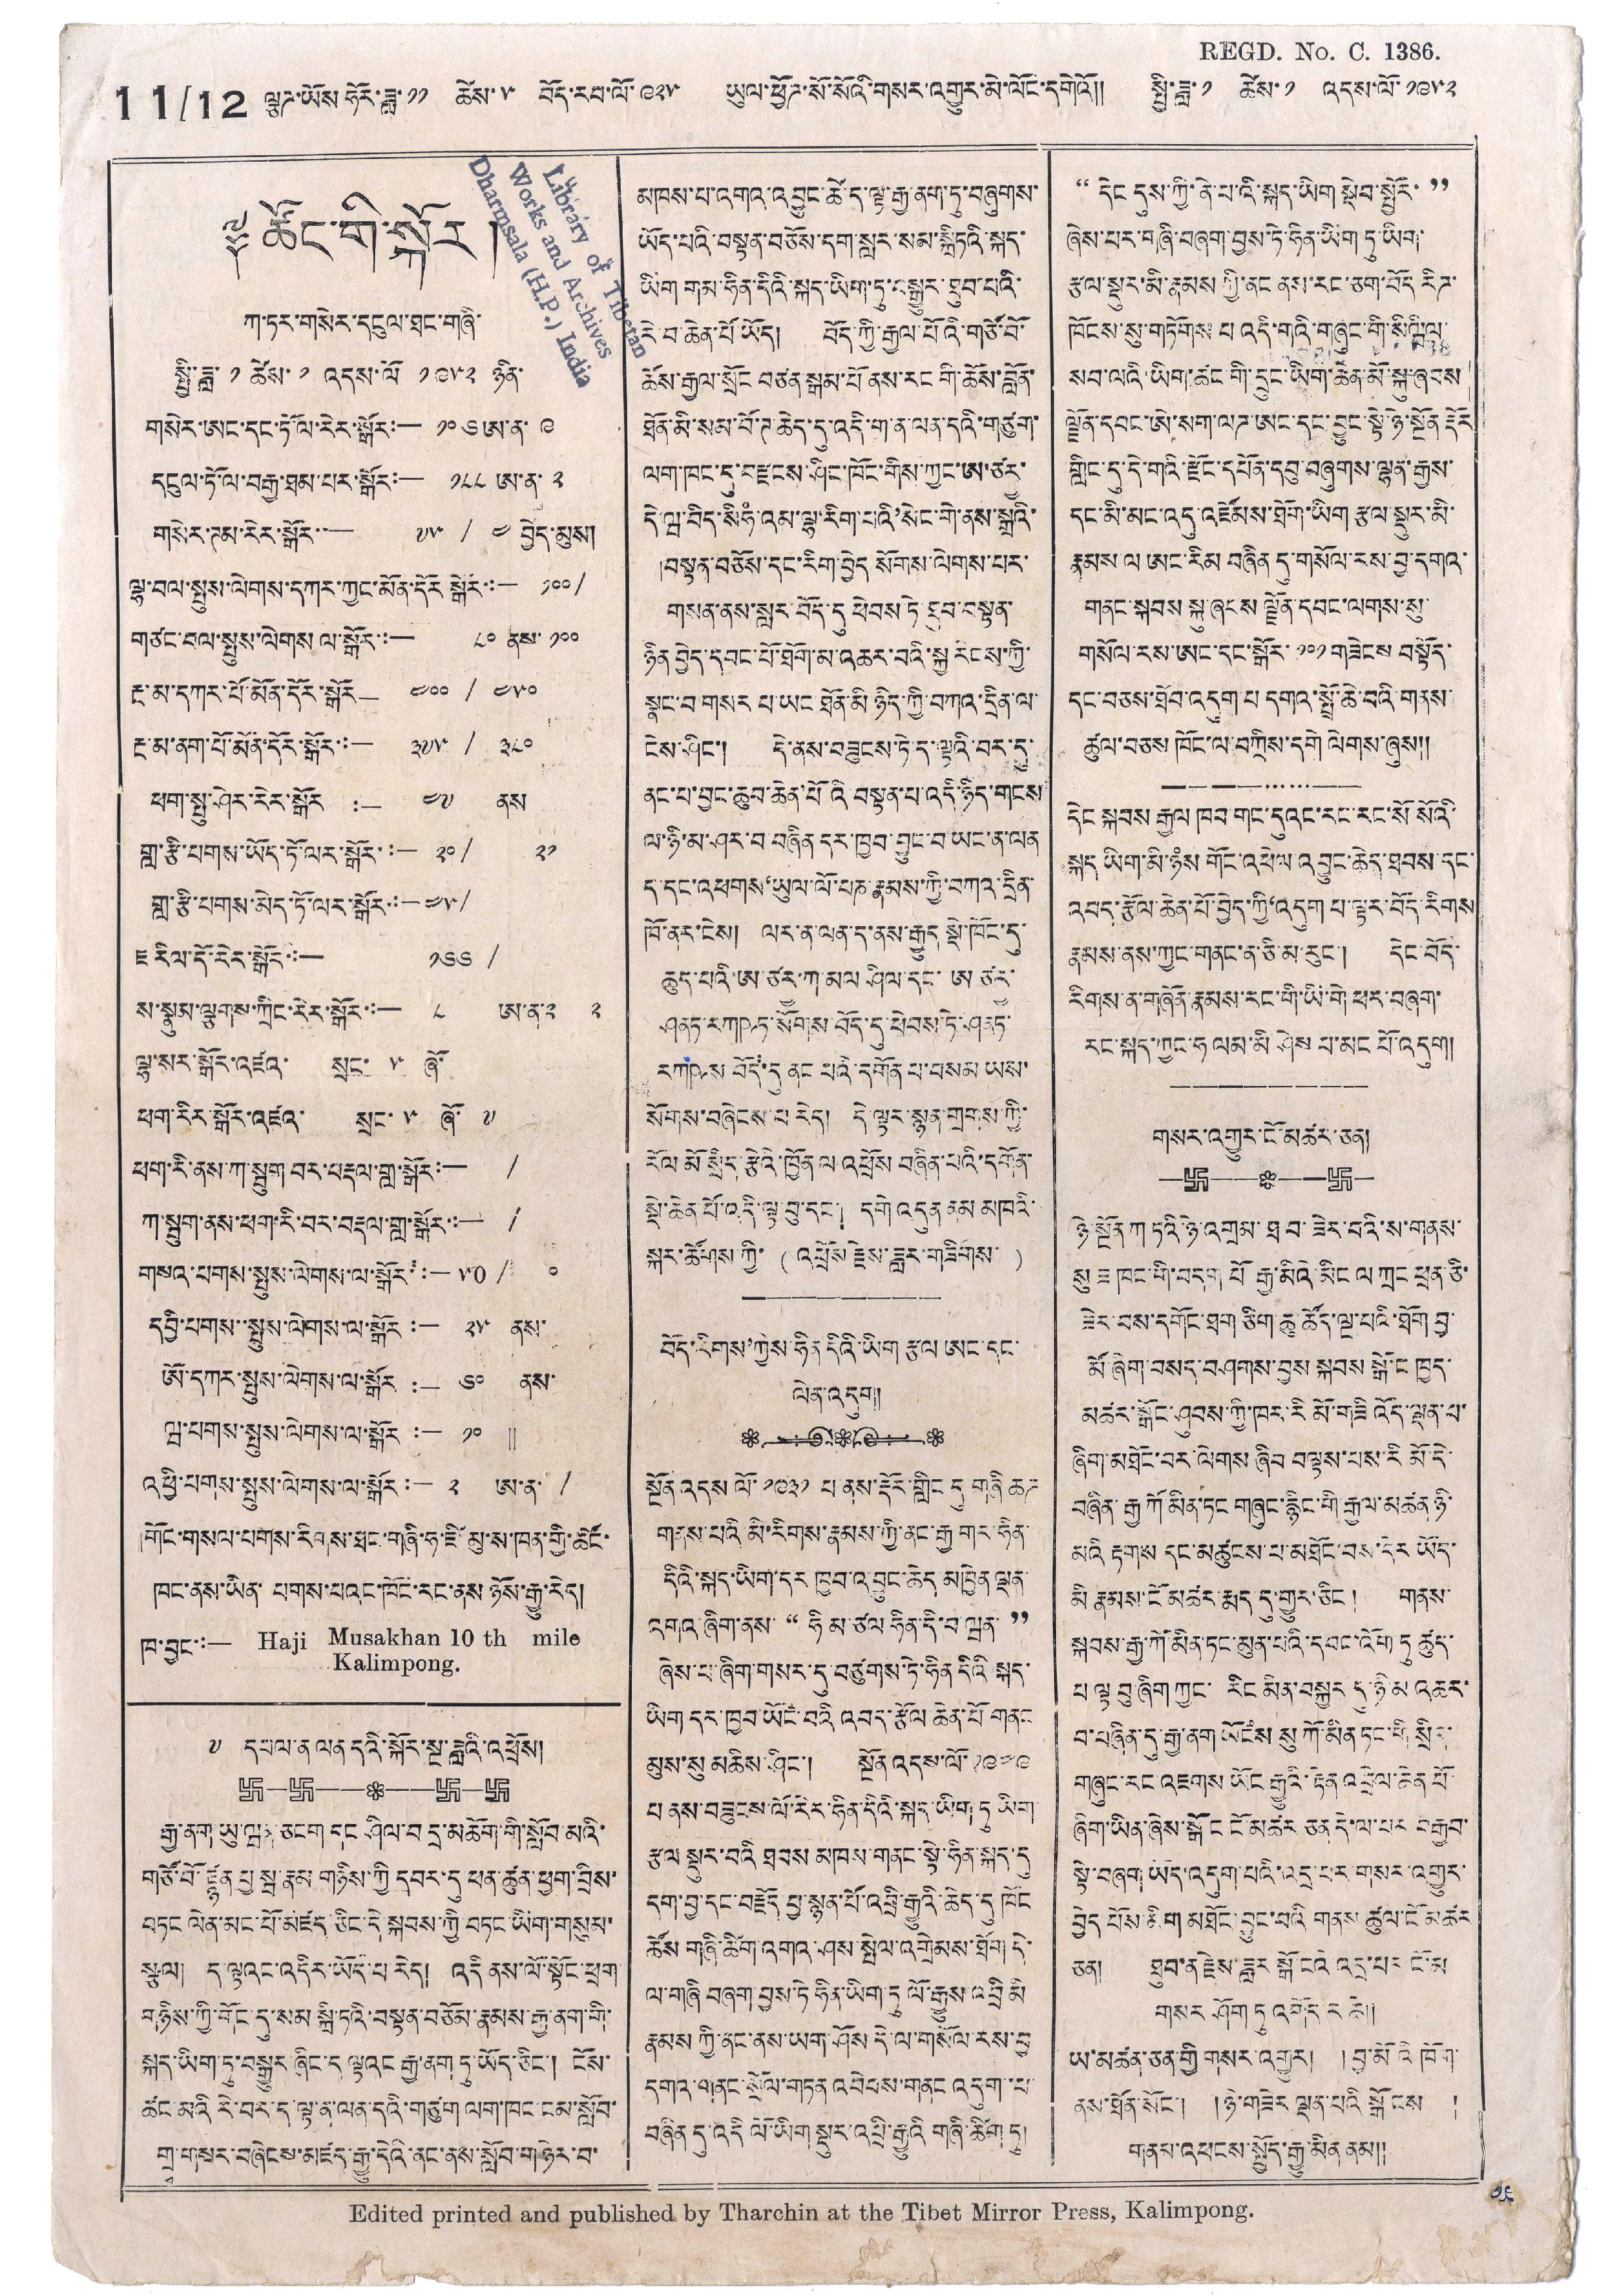REGD. No. C. 1386.
11/12 ལྕཊ་ཡོས་ཧོར་ཟླ་ ༡༡ ཚེས་ ༥ བོད་རབ་ལོ་ ༩༢༥ ཡུལ་ཕྱོཊ་སོ་སོའི་གསར་འགྱུར་མེ་ལོང་དགེའོ།། སྤྱི་ཟླ་ ༡ ཚེས་ ༡ འདས་ལོ་ ༡༩༥༢
༈ ཚོང་གི་སྐོར།
ཀ་ཏར་གསེར་དངུལ་ཐང་གཞི་
སྤྱི་ཟླ་ ༡ ཚེས་ ༡ འདས་ལོ་ ༡༩༥༢ ཉིན་
གསེར་ཨང་དང་ཏོ་ལ་རེར་སྒོར:— ༡༠༦ ཨ་ན་ ༩
དངུལ་ཏོ་ལ་བརྒྱ་ཐམ་པར་སྒོར་:— ༡༨༨ ཨ་ན་ ༢
གསེར་ཊམ་རེར་སྒོར་:— ༧༥ / ༤ བྱེད་མུས།
ལྷ་བལ་སྤུས་ལེགས་དཀར་ཀྱང་མོན་དོར་སྒེར་:— ༡༠༠/
གཙང་བལ་སྤུས་ལེགས་ལ་སྒོར:— ༨༠ ནས་ ༡༠༠
རྔ་མ་དཀར་པོ་མོན་དོར་སྒོར་— ༤༠༠ / ༤༥༠
རྔ་མ་་ནག་པོ་མོན་དོར་སྒོར་:— ༣༧༥ / ༣༨༠
ཕག་སྤུ་ཤེར་རེར་སྒོར་:— ༤༧  ནས
གླ་རྩི་པགས་ཡོད་ཏོ་ལར་སྒོར་:— ༢༠ / ༢༡
གླ་རྩི་པགས་མེད་ཏོ་ལར་སྒོར་:— ༤༥/
ཇ་རིལ་དོ་རེར་སྒོང་:— ༡༦༦ /
ས་སྣུམ་ལྕགས་ཀྲིང་རེར་སྒོར་:— ༨ ཨ་ན་ ༢ ༢
ལྷ་སར་སྒོར་འཛའ་ སྲང་ ༥ ཞོ་
ཕག་རིར་སྒོར་འཛའ་ སྲང་ ༥ ཞོ་ ༧
ཕག་རི་ནས་ཀ་སྤུག་བར་བརྡལ་གླ་སྒོར་:— /
ཀ་སྦུག་ནས་ཕག་རི་བར་བརྡར་གླ་སྒོར་:— /
གསའ་པགས་སྤུས་ལེགས་ལ་སྒོར་  ༥༠ / ༠
དབྱི་པགས་་སྤུས་ལེགས་ལ་སྒོར་:— ༢༥ ནས་
ཨོ་དཀར་སྤུས་ལེགས་ལ་སྒོར་:— ༦༠ ནས་
ཝ་པགས་སྤུས་ལེགས་ལ་སྒོར་:— ༡༠ ||
འཕྱི་པགས་སྤུས་ལེགས་ལ་སྒོར་:— ༢ ཨ་ན་ /
།གོང་གསལ་པགས་རིགས་ཐང་གཞི་ཧ་ཇི་མུ་ས་ཁན་གྱི་ཚོང་
ཁང་ནས་ཡིན་ པགས་པའང་ཁོང་རང་ནས་ཉོས་རྒྱུ་རེད།
ཁ་བྱང་:— Haji Musakhan 10th mile
Kalimpong.
༸ དཔལ་ན་ལན་དའི་སྐོར་སྔ་ཟླའི་འཕྲོས།
རྒྱ་ནག ཡུ་ཝན་ཅངག དང ཤིལ་བ་དྲ་མཆོག་གི་སློབ་མའི་
གཙོ་བོ་ཛྙན པྱ སྦ་རྣམ་གཉིས་ཀྱི་དབར་དུ ཕན་ཚུན་ཕྱག་བྲིས་
བཏང་ལེན་མང་པོ་མཛད་ཅིང་དེ་སྐབས་ཀྱི་བཏང་ཡིག་གསུམ་
སྩལ། ད་ལྟའང་འདིར་ཡོད་པ་རེད། འདི་ནས་ལོ་སྟོང་ཕྲག་
གཉིས་ཀྱི་གོང་དུ་སམ་སྐྲི་ཏའི་བསྟན་བཅོས་རྣམས་རྒྱ་ནག་གི་
སྐད་ཡིག་ཏུ་བསྒྱུར་ཞིང་ད་ལྟའང་རྒྱ་ནག་ཏུ་ཡོད་ཅིང་། ངོས་
ཚང་མའི་རེ་བར་ད་ལྟ་ན་ལན་དའི་གཙུག་ལག་ཁང་ངམ་སློབ་
གྲྭ་གསར་བཞེངས་མཛད་རྒྱུ་དེའི་ནང་ནས་སློབ་གཉེར་བ་
མཁས་པ་འགའ་འབྱུང་ཚེ་ད་ལྟ་རྒྱ་ནག་ཏུ་བཞུགས་
ཡོད་པའི་བསྟན་བཅོས་དག་སླར་སམ་སྐྲིཏའི་སྐད་
ཡིག གམ་ཧིན་དིའི་སྐད་ཡིག་ཏུ་བསྒྱུར་ཐུབ་པའི་
རེ་བ་ཆེན་པོ་ཡོད། བོད་ཀྱི་རྒྱལ་པོའི་གཙོ་བོ་
ཆོས་རྒྱལ་སྲོང བཙན་སྒམ་པོ་ནས་རང་གི་ཆོས་བློན་
ཐོན་མི་སམ་བོ་ཊ་ཆེད་དུ་འདི་ག་ན་ལན་དའི་གཙུག་
ལག་ཁང་དུ་བརྫངས་ཤིང་ཁོང་གིས་ཀྱང་ཨ་ཙརྱ་
དེ་ཝ་བིད་སིཧཾཾ་འམ་ལྷ་རིག་པའི'སེང་གེ་ནས་སྒྲའི་
།བསྟན་བཅོས་དང་རིག་བྱེད སོགས་ལེགས་པར་
གསན་ནས་སླར་བོད་དུ་ཕེབས ཏེ་ཐུབ་བསྟན་
ཉིན་བྱེད་དབང་པོ་ཐོག་མ་འཆར་བའི་སྐྱ རིངས་ཀྱི་
སྣང་བ་གསར་ པ་ཡང ཐོན་མི ཉིད་ཀྱི་བཀའ་དྲིན་ལ་
ངེས་ཤིང་། དེ་ནས་་བཟུངས་ཏེ་ད་ལྟའི་བར་དུ་
ནང་པ་བྱང་ཆུབ་ཆེན་པོའི་བསྟན་པ་འདི་ཉིད་གངས་
ལ་ཉི་མ་ཤར་བ་བཞིན་དར་ཁྱབ་བྱུང་བ་ཡང་ན་ལན་
ད་དང་འཕགས'ཡུལ་ལོ་པཎ་རྣམས་ཀྱི་བཀའ་དྲིན་
ཁོ་ནར་ངེས། ལར་ན་ལན་ད་ནས་རྒྱུད་སྡེ་ཁོང་དུ་
ཆུད་པའི་ཨ་ཙརྱ་ཀ་མལ ཤིལ་དང་ཨ ཙརྱ་
ཤནཏ་རཀཥཏ་སོགས་བོད་དུ་ཕེབས་ཏེ་ཤནཏ་
རཀཥས་བོད་དུ་ནང པའི་དགོན་པ་བསམ ཡས་
སོགས་བཞེངས་པ་རེད། དེ་ལྟར་སྙན་གྲགས་ཀྱི་
རོལ་མོ་སྲིད་རྩེའི་ཁྱོན་ལ་འཕྲོས བཞིན་པའི་དགོན་
སྡེ་ཆེན་པོ་འདི་ལྟ་བུ་དང་། དགེ་འདུན་ནམ་མཁའི་
སྐར་ཚོགས་ཀྱི་ (འཕྲོས་རྗེས་ཟླར་གཟིགས་)
བོད་རིགས'ཀྱིས་ཧིན དིའི་ཡིག རྩལ ཨང་དང་
ལེན་འདུག།
སྔོན་འདས་ལོ་ ༡༩༣༡ པ་ནས་རྡོར་གླིང དུ གཞི་ཆཊ
གནས་པའི་མི་རིགས་རྣམས་ཀྱི་ནང་རྒྱ གར་ཧིན་
དེའི་སྐད་ཡིག་དར་ཁྱབ་འབྱུང་ཆེད་མཁྱེན་ལྡན་
འགའ་ཞིག་ནས་ '' ཧི མ་ཙལ་ཧིན་དི་བ་ཝན་ ''
ཞེས་པ་ཞིག་གསར་དུ་བཙུགས་ཏེ་ཧིན་དིའི སྐད་
ཡིག་དར་ཁྱབ་ཡོང་བའི འབད་རྩོལ་ཆེན་པོ གནང་
མུས་སུ་མཆིས་ཤིང་། སྔོན་འདས་ལོ་ ༡༩༤༩
པ ནས་བཟུངས་ལོ་རེར་ཧིན་དིའི་སྐད་ཡིག ཏུ ཡིག་
རྩལ་སྡུར་བའི ཐབས མཁས་གནང་སྟེ་ཧིན་སྐད་དུ་
དག་བྱ་དང་བརྗོད་བྱ་སྙན་པོ་འབྲི་རྒྱུའི་ཆེད་དུ་ཁོང་
ཚོས་གཞི་ཚིག་འགའ་ཤས་སྤེལ་འགྲེམས་ཐོག་དེ་
ལ་གཞི བཞག་བྱས་ཏེ་ཧིན་ཡིག་ཏུ ལོ་རྒྱུས་འབྲི མི་
རྣམས ཀྱི་ནང་ནས་ཡག་ཤོས་དེ་ལ་གསོལ་རས་བྱ་
དགའ་གནང་སྲོལ་གཏན་འབེབས་གནང འདུག་པ་
བཞིན་དུ་འདི ལོ་ཡིག སྡུར་འཔྲི་རྒྱུའི གཞི་ཚིག ཏུ་
'' དེང དུས་ཀྱི་ནེ་པ་འི་སྐད་ཡིག་སྡེབ་སྦྱོར་ ''
ཞེས་པར་གཞི་བཞག་བྱས་ཏེ་ཧིན་ཡིག་ཏུ་ཡིག་
རྩལ་སྡུར་མི་རྣམས ཀྱི་ནང་ནས་རང་ཅག་བོད རིཊ
ཁོངས་སུ་གཏོགས པ འདི་གའི་གཞུང་གི་སིཝིལ་
སབ་ལའི་ཡིག་ཚང་གི་དྲུང་ཡིག་ཆེན་མོ་སྐུ་ཞབས་
ལྗོན་དབང་ཨེ་སག་ལཊ་ཨང་དང་བྱུང་སྟེ་ཉེ་སྔོན རྡོར་
གླིང་དུ་དེ་གའི་རྫོང་དཔོན་དབུ་བཞུགས་ལྷན་རྒྱས་
དང་མི་མང་འདུ་འཛོམས་ཐོག་ཡིག་རྩལ་སྡུར་མི་
རྣམས་ལ ཨང་རིམ་བཞིན དུ་གསོལ་རས་བྱ་དགའ་
གནང་སྐབས སྐུ་ཞབས་ལྗོན་དབང་ལགས་སུ་
གསོལ་རས་ཨང་དང་སྒོར་ ༡༠༡ གཟེངས བསྟོད་
དང་བཅས་ཐོབ་འདུག་པ དགའ་སྤྲོ་ཆེ་བའི་གནས་
ཚུལ་བཅས་ཁོང་ལ་བཀྲིས་དགེ་ལེགས་ཞུས།།
དེང་སྐབས རྒྱལ ཁབ་གང་དུའང་རང་རང་སོ་སོའི་
སྐད ཡིག་མི་ཉཾས་གོང་འཕེལ་འབྱུང་ཆེད་ཐབས་དང་
འབད་རྩོལ་ཆེན་པོ་བྱེད་ཀྱི'འདུག་པ་ལྟར་བོད་རིགས
རྣམས་ནས་ཀྱང་གནང་ན་ཅི་མ་རུང་། དེང་བོད་
རིགས་ན་གཞོན་རྣམས་རང་གི་ཡི་གེ་ཕར་བཞག་
རང་སྐད་ཀྱང་ཧ་ལམ་མི ཤེས་པ་མང་པོ་འདུག།
གསར་འགྱུར་ངོ་མཚར་ཅན།
ཉེ་སྔོན་ཀ ཏའི་ཉེ་འགྲམ་ཐབ་ཟེར་བའི་ས་གནས་
སུ ཟ ཁང་གི་བདག་པོ རྒྱ་མིའི་མིང་ལ་ཀྲང ཕྲན་ཅི་
ཟེར་བས་དགོང་ཐག་ཅིག་ཆུ་ཚོད་ལྔ་པའི་ཐོག་བྱ་
མོ་ཞིག་བསད་བཤགས་བྱས སྐབས་སྒོ་ང ཁྱད་
མཚར་སྒོང་ཤུབས་ཀྱི་ཁར་རི མོ་གཟི་ འོད་ལྡན་པ་
ཞིག་མཐོང་བར་ལེགས ཞིབ བལྟས་པས་རི མོ་དེ་
བཞིན་རྒྱ ཀོ་མིན་ཏང་གཞུང་རྙིང་གི་རྒྱལ་མཚན་ཉི་
མའི་རྟགས དང་མཚུངས་པ་མཐོང་བས་དེར ཡོད་
མི་རྣམས་ངོ་མཚར་རྨད་དུ་གྱུར་ཅིང ། གནས་
སྐབས་རྒྱ་ཀོ་མིན་ཏང་མུན་པའི་དབང་འོག་ཏུ་ཚུད་
པ་ལྟ་བུ་ཞིག་ཀྱང་ རིང་མིན་བསྐྱར དུ་ཉི་མ འཆར་
བ་བཞིན་དུ་རྒྱ་ནག ཡོངས་སུ་ཀོ་མིན་ཏང་གི སྲིད་
གཞུང་རང་འཇགས ཡོང རྒྱུའི་རྟེན་འབྲེལ་ཆེན་པོ་
ཞིག་ཡིན་ཞེས་སྒོ ང་ངོ་མཚར ཅན་དེ་ལ་པར བརྒྱབ་
སྟེ་བཞག ཡོད་འདུག་པའི་འདྲ་པར་གསར་འགྱུར་
བྱེད་པོས་མིག་མཐོང་བྱུང་བའི གནས ཚུལ་ངོ་མཚར་
ཅན། ཐུབ་ན་རྗེས་ཟླར སྒོ་ངའི་འདྲ་པར་ངོ་མ་
གསར་ཤོག ཏུ འགོད་ར ཆེ།།
ཡ་མཚན་ཅན་གྱི་གསར་འགྱུར། །བྱ་མོའི ཁོག་
ནས་ཐོན་སོང་། །ཉེ་གཟེར་ལྡན་པའི་སྒོངས །
གནས་འཕངས་སྤྱོད་རྒྱུ་མིན་ནམ།།
Edited printed and published by Tharchin at the Tibet Mirror Press, Kalimpong.
